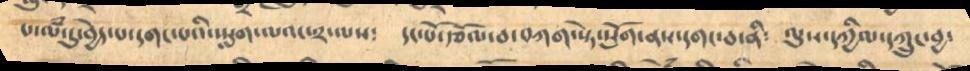པ་ལཾ་དུ་བྱེད་པ་དགང་པའི་ཡླག་ལའང་༢་ལས༴ དང་པོ་རྩོལ་བ་བཀག་སྟེ་སློག་ནས་དགང་བ་ནི༴ ལུས་དཀྱིལ་དཀྲུང་བྱ༴
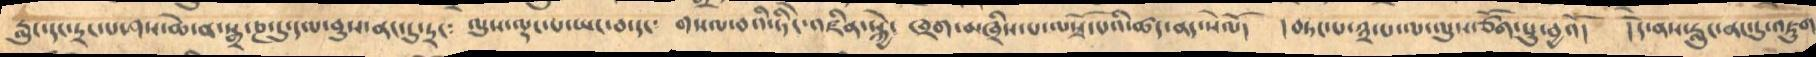རླུང་དང་དྲང་པ་ཤས་ཆེ་ན་སྒྲ་ཎ་དུ་དལ་བུས་ནང་དུ་དྲང༴ ལུས་ལྡང་པ་ཡང་བ་དང༴ གསལ་བའི་ཏིང་འཛིན་སྐྱེ་ ཁྲག་མཁྲིས་པ་ལསྭོ་པའི་ཚད་ནད་སེལོ། །བཏང་པ་༣་པ་ལ་ལུས་པུ་བྱའོ། །དེ་ནས་རླུང་ནང་དུ་འཇུག
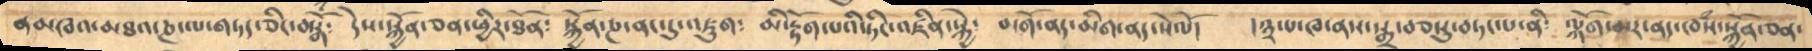ནམཁའ་མཐའ་ཎ་ལ་གཏད་ཅིང་བསྒོཾ༴ དེས་སྐྱོན་ཅན་ཕྱིར་ཐོན༴ སྐྱོན་ཎ་ནང་དུ་འཇུག༴ མི་རྟོག་པའི་ཏིང་འཛིན་སྐྱེ༴ མགོ་ནད་མིག་ནད་སེལོ། །༣་པ་ཁ་ནས་སྒྲ་བཅསུ་བཏང་པ་ནི༴ ལྐོག་མར་ནད་ཁཾས་སྐྱོན་ཅན་
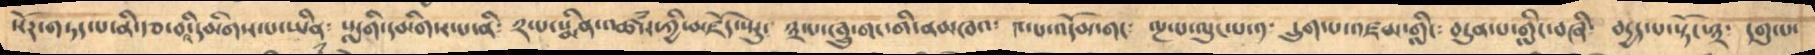སོར་གཏད་པ་ནི་རྩ་བའི་དམིགས་པ་ཡིན༴ ཡླགི་དམིགས་པ་ནི༴ ༢་པ་སྨིན་འཚཾས་ཀྱི་མཛོད་སྤུ་ ༣་པ་ཁྲུ་གང་གི་ནམཁའ༴ ༤་པ་འདོམ་གང༴ ལྔ་པ་ལུང་པ་༡་ དྲུག་པ་འཛམ་གླིང་བཞི་ བདྱད་པ་སྟོང་༣་ དགུ་པ་
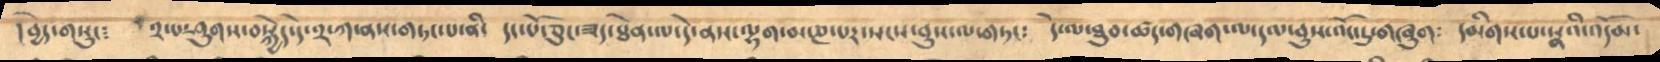།བྱེད་གསུང༴ ༢་པ་ཤུགས་བསྐྱེད་དེ་༢་ཀ་ནས་གཏང་པ་ནི་ དང་པོ་ཅུང་ཟད་ཐེན་ལ་དེ་ནས་ལྷག་མ་ཎ་པར་སངས་ནུས་ལ་གཏང༴ དེ་ལ་ཐུབ་ཚད་གཞག་ལ་དལ་བུས་འོང་དུ་གཞུག༴ དམིགས་པ་སྣའི་འདོམ་
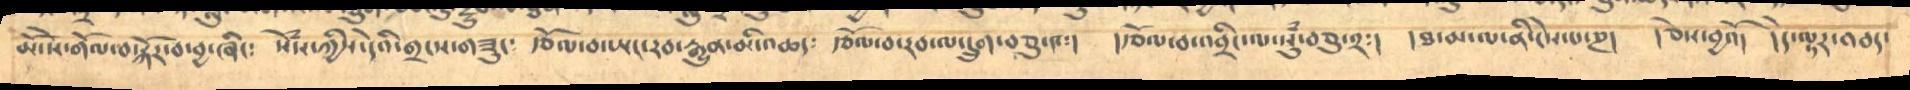མོ་སེ་གོལ་བསྐོར་བ་བྱ་ཞིང༴ སེཾས་ཀྱིས་དེའི་གྲངས་གཟུང༴ རྩོལ་བ་ཡང་རྒྱུན་མི་འཆད༴ རྩོལ་བ་རབ་ལ་དྲུག་བཅུ་༤༴། །རྩོལ་བ་འབྲིང་ལ་སུཾ་བཅུ་༢༴། །ཐ་མ་ལ་ནི་ངེས་པ་ཎ། །ཅེས་བྱའོ། །དེ་ལྟར་འབད་
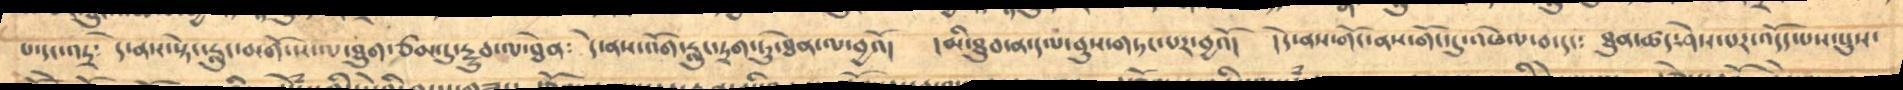པ་དང་འདྲ༴ དེ་ནས་སྟེང་རླུང་མགོ་ས་ལ་ཐུག་ཙམ་དུ་རྔུབ་ལ་ཐེན༴ དེ་ནས་འོག་རླུང་དྲག་ཏུ་ཐེན་ལ་བྱའོ། །མི་ཐུབ་ན་དལ་བུས་གཏང་པར་བྱའོ། །དེ་ནས་གོང་ནས་གོང་དུ་འཕེལ་བ་དང༴ ཐུན་ཚད་ཤེས་པར་འདོད་པས་སུས་
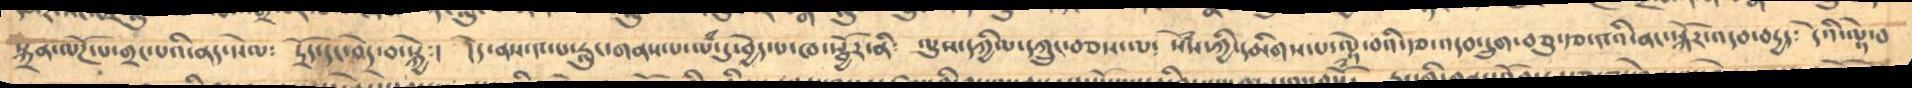སྐྲན་ལོཌ་པ་གྲང་པའི་ནད་སེལ༴ དྲོད་དང་བདེ་བ་སྐྱེ༴། །དེ་ནས་༤་པ་རླུང་གནས་པ་ལཾ་དུ་བྱེད་པ་ཁ་སྦྱོར་ནི༴ ལུས་དཀྱིལ་དཀྲུང་བཅས་ལ༴ སེཾས་ཀྱི་དམིགས་པ་ལྟེ་བའི་རྩ་འདབ་དྲུག་བཅུ་རྩ་༤འི་ནང་སྐོར་འདབ་བདྱད༴ དེའི་ལྟེ་བ
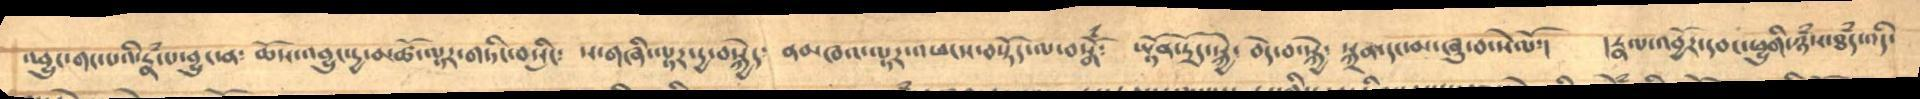འབྱུང་གང་པའི་རྣཾ་པ་བྱུང་ན༴ ཆོས་འབྱུང་དྱ་མཚོ་ལྟར་གཏིང་བསླིང༴ ས་གཞི་ལྟར་དྱ་བསྐྱེད་ ནམཁའ་ལྟར་འཕངས་བསྟོད་ལ་བསྒོཾ༴ ཡྟོན་དྲོད་སྐྱེ་ བདེ་བ་སྐྱེ་ སྐྲན་དང་མ་ཞུ་བ་སེལོ༴། །རྣལ་འབྱོར་དབང་ཕྱུགི་ཉཾས་ཐཾད་འདི་
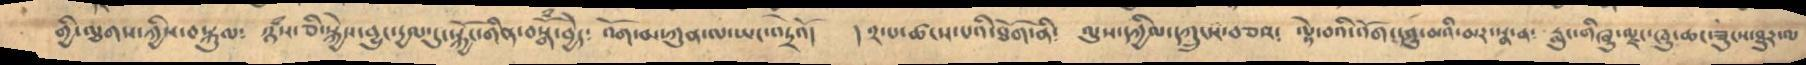གྱི་ལྕགས་ཀྱིས་བསྐུལ༴ ཉཾས་ཅི་སྐྱེས་བྱུང་དྱལ་དུ་སྐྱོང་གིན་བསྒོཾ་བྱེད༴ འོག་མ་ཀུན་ལ་ཡང་འདྲེའོ། །༢་པ་ཚངས་པའི་ཐོག་ནི༴ ལུས་དཀྱིལ་དཀྲུངས་བཅས༴ ལྟེ་བའི་འོག་དབུ་མའི་མར་སྣ་ན༴ རླུང་གིཞུ་ལྗང་ཞུ་ཆང་ཟུངས་ཐུར་ལ
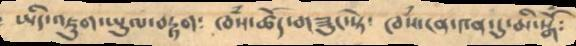ཡིད་འཇུག་ཡུལ་བརྟག༴ ཁཾས་ཚོད་གཟུང་སྟེ༴ ཁཾས་ངན་༤ན་དུ་མི་སྒོཾ༴
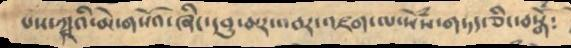པས་ཀྵའི་མེ་གསོའ་ཞིང་དབུ་མར་འབར་འཛག་ལ་སེཾས་གཏད་ཅིང་བསྒོཾ༴
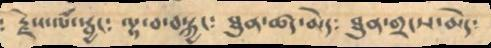རྗེས་ལ་སྦྱང༴ ལྷ་བ་བསྐྱང༴ ཐུན་ཚད་མེད༴ ཐུན་གྲངས་མེད༴
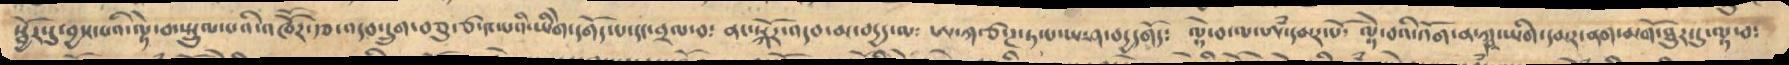སྦྱོར་དུ་བྱས་པའི་ལྟེ་བ་སྤྲུལ་པའི་འཁོོར་རྩ་འདབ་དྲུག་བཅུ་ཙ་༤་པའི་ཡིགེ་དགོད་པ་དང་བྲལ་བ༴ ནང་སྐོར་འདབ་མ་བདྱད་མ༴ ཨ་ཀ་ཙ་ཊ་ཏ་པ་ཡ་ཤ་བདྱདགོད༴ ལྟེ་བ་ལ་ཨཾ་དམར་པོ་ ལྟེ་བའི་འོག་ན་ཀྵ་ཡིག་དམར་ནག་མགོ་ཐུར་དུ་ལྟ་བ༴
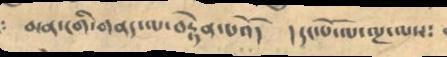མན་ངགི་གནད་ལ་བརྟེན་པའོ། །དང་པོ་ལ་ལྔ་ལས༴
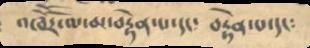འཁོོར་ལ་མ་བརྟེན་པ་དང་ བརྟེན་པ་དང༴
